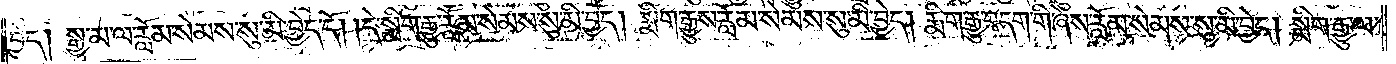བྱེད། སྒྱུ་མ་ལ་རློམ་སེམས་སུ་མི་བྱེད་དོ། །དེ་སྨིག་རྒྱུ་རློམ་སེམས་སུ་མི་བྱེད། སྨིག་རྒྱུས་རློམ་སེམས་སུ་མི་བྱེད། སྨིག་རྒྱུ་བདག་གི་ཞེས་རློམ་སེམས་སུ་མི་བྱེད། སྨིག་རྒྱུ་ལ་
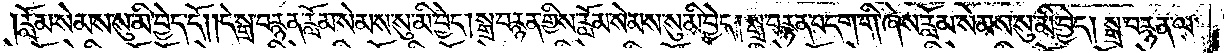རློམ་སེམས་སུ་མི་བྱེད་དོ། །དེ་སྒྲ་བརྙན་རློམ་སེམས་སུ་མི་བྱེད། སྒྲ་བརྙན་གྱིས་རློམ་སེམས་སུ་མི་བྱེད། སྒྲ་བརྙན་བདག་གི་ཞེས་རློམ་སེམས་སུ་མི་བྱེད། སྒྲ་བརྙན་ལ་
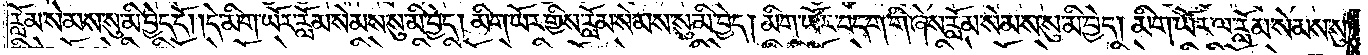རློམ་སེམས་སུ་མི་བྱེད་དོ། །དེ་མིག་ཡོར་རློམ་སེམས་སུ་མི་བྱེད། མིག་ཡོར་གྱིས་རློམ་སེམས་སུ་མི་བྱེད། མིག་ཡོར་བདག་གི་ཞེས་རློམ་སེམས་སུ་མི་བྱེད། མིག་ཡོར་ལ་རློམ་སེམས་སུ་
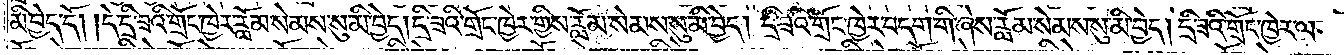མི་བྱེད་དོ། །དེ་དྲི་ཟའི་གྲོང་ཁྱེར་རློམ་སེམས་སུ་མི་བྱེད། དྲི་ཟའི་གྲོང་ཁྱེར་གྱིས་རློམ་སེམས་སུ་མི་བྱེད། དྲི་ཟའི་གྲོང་ཁྱེར་བདག་གི་ཞེས་རློམ་སེམས་སུ་མི་བྱེད། དྲི་ཟའི་གྲོང་ཁྱེར་ལ་
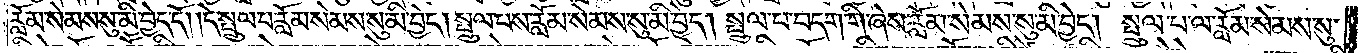རློམ་སེམས་སུ་མི་བྱེད་དོ། །དེ་སྤྲུལ་པ་རློམ་སེམས་སུ་མི་བྱེད། སྤྲུལ་པས་རློམ་སེམས་སུ་མི་བྱེད། སྤྲུལ་པ་བདག་གི་ཞེས་རློམ་སེམས་སུ་མི་བྱེད། སྤྲུལ་པ་ལ་རློམ་སེམས་སུ་
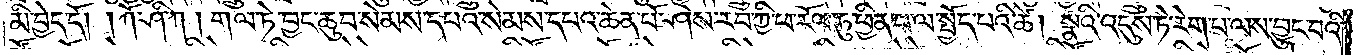མི་བྱེད་དོ། །ཀཽ་ཤི་ཀ། གལ་ཏེ་བྱང་ཆུབ་སེམས་དཔའ་སེམས་དཔའ་ཆེན་པོ་ཤེས་རབ་ཀྱི་ཕ་རོལ་ཏུ་ཕྱིན་པ་ལ་སྤྱོད་པའི་ཚེ། སྣའི་འདུས་ཏེ་རེག་པ་ལས་བྱུང་བའི་
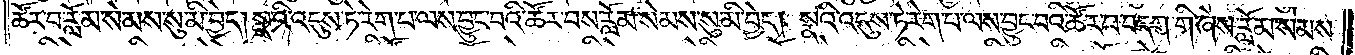ཚོར་བ་རློམ་སེམས་སུ་མི་བྱེད། སྣའི་འདུས་ཏེ་རེག་པ་ལས་བྱུང་བའི་ཚོར་བས་རློམ་སེམས་སུ་མི་བྱེད། སྣའི་འདུས་ཏེ་རེག་པ་ལས་བྱུང་བའི་ཚོར་བ་བདག་གི་ཞེས་རློམ་སེམས་
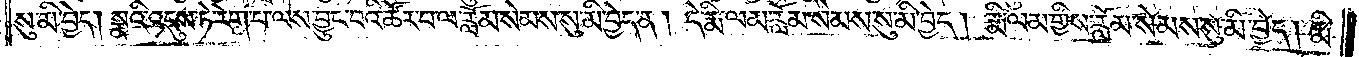སུ་མི་བྱེད། སྣའི་འདུས་ཏེ་རེག་པ་ལས་བྱུང་བའི་ཚོར་བ་ལ་རློམ་སེམས་སུ་མི་བྱེད་ན། དེ་རྨི་ལམ་རློམ་སེམས་སུ་མི་བྱེད། རྨི་ལམ་གྱིས་རློམ་སེམས་སུ་མི་བྱེད། རྨི་
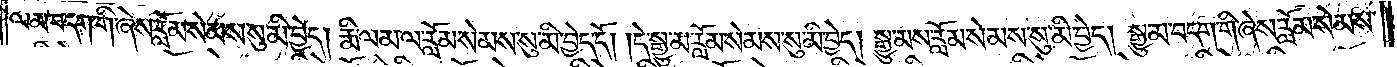ལམ་བདག་གི་ཞེས་རློམ་སེམས་སུ་མི་བྱེད། རྨི་ལམ་ལ་རློམ་སེམས་སུ་མི་བྱེད་དོ། །དེ་སྒྱུ་མ་རློམ་སེམས་སུ་མི་བྱེད། སྒྱུ་མས་རློམ་སེམས་སུ་མི་བྱེད། སྒྱུ་མ་བདག་གི་ཞེས་རློམ་སེམས་
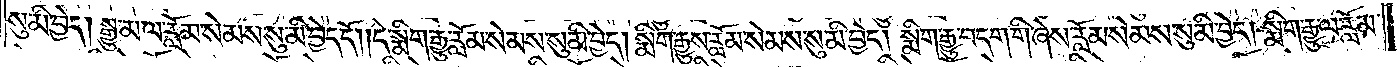སུ་མི་བྱེད། སྒྱུ་མ་ལ་རློམ་སེམས་སུ་མི་བྱེད་དོ། །དེ་སྨིག་རྒྱུ་རློམ་སེམས་སུ་མི་བྱེད། སྨིག་རྒྱུས་རློམ་སེམས་སུ་མི་བྱེད། སྨིག་རྒྱུ་བདག་གི་ཞེས་རློམ་སེམས་སུ་མི་བྱེད། སྨིག་རྒྱུ་ལ་རློམ་
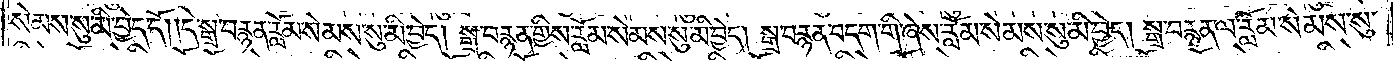སེམས་སུ་མི་བྱེད་དོ། །དེ་སྒྲ་བརྙན་རློམ་སེམས་སུ་མི་བྱེད། སྒྲ་བརྙན་གྱིས་རློམ་སེམས་སུ་མི་བྱེད། སྒྲ་བརྙན་བདག་གི་ཞེས་རློམ་སེམས་སུ་མི་བྱེད། སྒྲ་བརྙན་ལ་རློམ་སེམས་སུ་
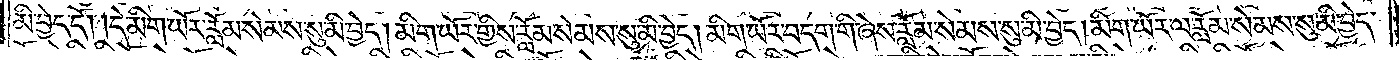མི་བྱེད་དོ། །དེ་མིག་ཡོར་རློམ་སེམས་སུ་མི་བྱེད། མིག་ཡོར་གྱིས་རློམ་སེམས་སུ་མི་བྱེད། མིག་ཡོར་བདག་གི་ཞེས་རློམ་སེམས་སུ་མི་བྱེད། མིག་ཡོར་ལ་རློམ་སེམས་སུ་མི་བྱེད་
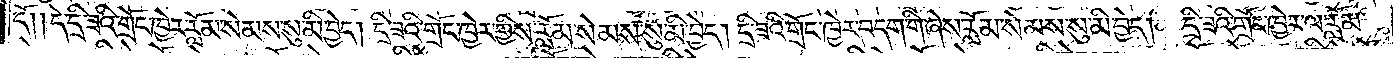དོ༑ ༑དེ་དྲི་ཟའི་གྲོང་ཁྱེར་རློམ་སེམས་སུ་མི་བྱེད། དྲི་ཟའི་གྲོང་ཁྱེར་གྱིས་རློམ་སེམས་སུ་མི་བྱེད། དྲི་ཟའི་གྲོང་ཁྱེར་བདག་གི་ཞེས་རློམ་སེམས་སུ་མི་བྱེད། དྲི་ཟའི་གྲོང་ཁྱེར་ལ་རློམ་
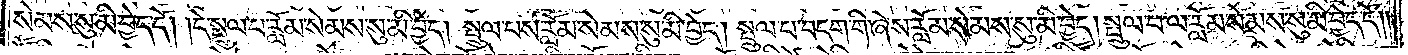སེམས་སུ་མི་བྱེད་དོ། །དེ་སྤྲུལ་པ་རློམ་སེམས་སུ་མི་བྱེད། སྤྲུལ་པས་རློམ་སེམས་སུ་མི་བྱེད། སྤྲུལ་པ་བདག་གི་ཞེས་རློམ་སེམས་སུ་མི་བྱེད། སྤྲུལ་པ་ལ་རློམ་སེམས་སུ་མི་བྱེད་དོ། །
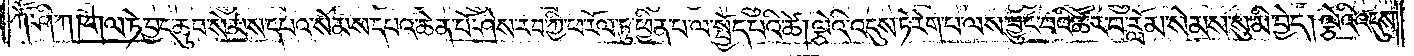ཀཽ་ཤི་ཀ། གལ་ཏེ་བྱང་ཆུབ་སེམས་དཔའ་སེམས་དཔའ་ཆེན་པོ་ཤེས་རབ་ཀྱི་ཕ་རོལ་ཏུ་ཕྱིན་པ་ལ་སྤྱོད་པའི་ཚེ། ལྕེའི་འདུས་ཏེ་རེག་པ་ལས་བྱུང་བའི་ཚོར་བ་རློམ་སེམས་སུ་མི་བྱེད། ལྕེའི་འདུས་
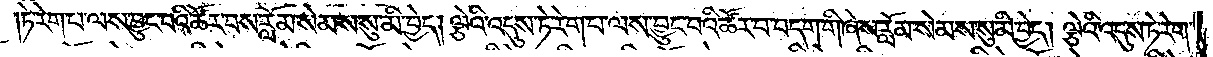ཏེ་རེག་པ་ལས་བྱུང་བའི་ཚོར་བས་རློམ་སེམས་སུ་མི་བྱེད། ལྕེའི་འདུས་ཏེ་རེག་པ་ལས་བྱུང་བའི་ཚོར་བ་བདག་གི་ཞེས་རློམ་སེམས་སུ་མི་བྱེད། ལྕེའི་འདུས་ཏེ་རེག་
